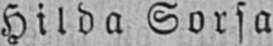Hilda Sorsa.
